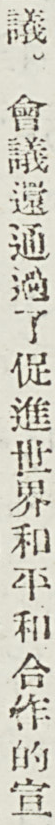議。會議還通過了促進世界和平和合作的宣
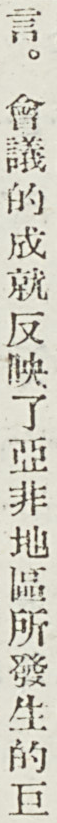言。會議的成就反映了亞非地區所發生的巨
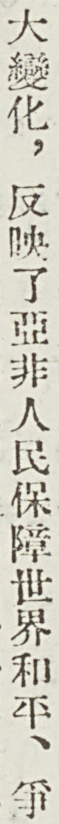大變化，反映了亞非人民保障世界和平、爭
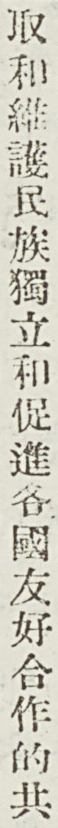取和維護民族獨立和促進各國友好合作的共
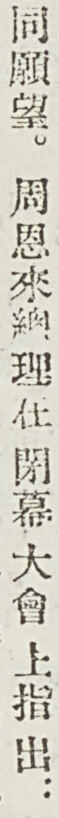同願望。周恩來總理在閉幕大會上指出：
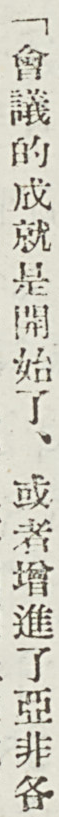「會議的成就是開始了、或者增進了亞非各
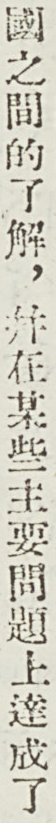國之間的了解，並在某些主要問題上達成了
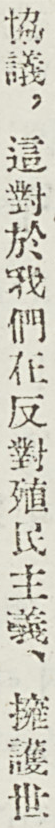協議，這對於我們在反對殖民主義、擁護世
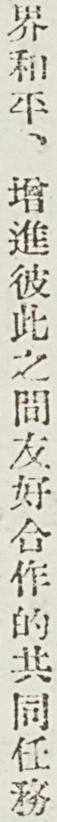界和平、增進彼此之間友好合作的共同任務
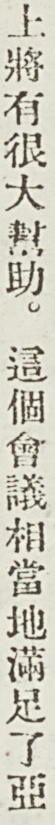上將有很大幫助。這個會議相當地滿足了亞
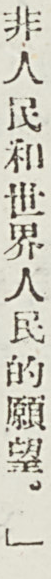非人民和世界人民的願望。」
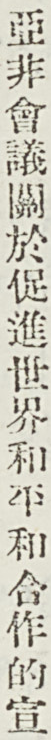亞非會議關於促進世界和平和合作的宣
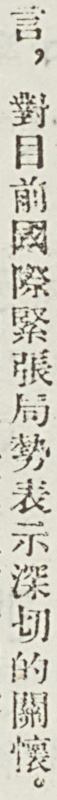言，對目前國際緊張局勢表示深切的關懷。
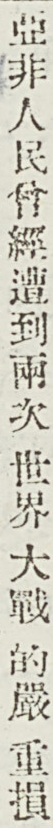亞非人民曾經遭到兩次世界大戰的嚴重損
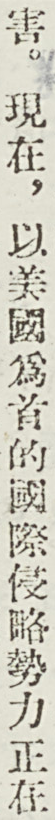害。現在，以美國爲首的國際侵略勢力正在
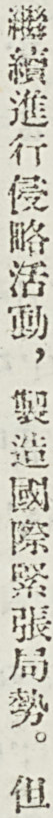繼續進行侵略活動，製造國際緊張局勢。但
